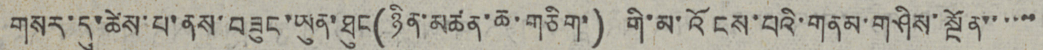གསར་དུ་ཚེས་པ་ནས་བཟུང་ཡུན་ཐུང(ཉིན་མཚན་ཆ་གཅིག་)གི་མ་འོངས་པའི་གནམ་གཤིས་སྔོན་་་་་་
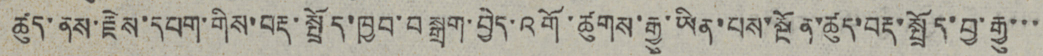ཚུད་ནས་རྗེས་དཔག་གིས་བརྡ་སྤྲོད་ཁྱབ་བསྒྲག་བྱེད་འགོ་ཚུགས་རྒྱུ་ཡིན་པས་སྔོན་ཚུད་བརྡ་སྤྲོད་བྱ་རྒྱུ་་་
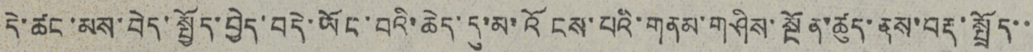དེ་ཚང་མས་བེད་སྤྱོད་བྱེད་བདེ་ཡོང་བའི་ཆེད་དུ་མ་འོངས་པའི་གནམ་གཤིས་སྔོན་ཚུད་ནས་བརྡ་སྤྲོད་་
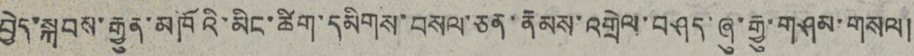བྱེད་སྐབས་རྒྱུན་མཁོའི་མིང་ཚིག་དམིགས་བསལ་ཅན་རྣམས་འགྲེལ་བཤད་ཞུ་རྒྱུ་གཤམ་གསལ།
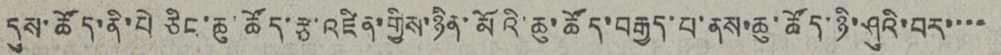དུས་ཚོད་ནི་པེ ཅིང་ཆུ་ཚོད་རྩ་འཛིན་གྱིས་ཉིན་མོའི་ཆུ་ཚོད་བརྒྱད་པ་ནས་ཆུ་ཚོད་ཉི་ཤུའི་བར་་་་
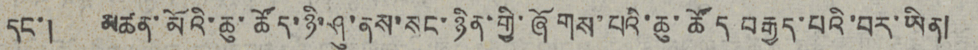མཚན་མོའི་ཆུ་ཚོད་ཉི་ཤུ་ནས་སང་ཉིན་གྱི་ཞོགས་པའི་ཆུ་ཚོད བརྒྱད་པའི་བར་ཡིན།
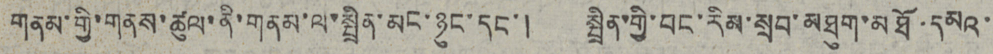གནམ་གྱི་གནས་ཚུལ་ནི་གནམ་ལ་སྤྲིན་མང་ཉུང་དང་། སྤྲིན་གྱི་བང་རིམ་སྲུབ་མཐུག་མཐོ་དམའ་
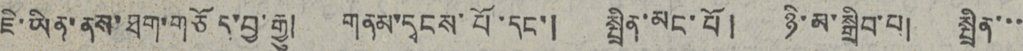ཇི་ཡིན་ནས་ཐག་གཅོད་བྱ་རྒྱུ། གནམ་དྭངས་པོ་དང་། སྤྲིན་མང་པོ། ཉི་མ་སྒྲིབ་པ། སྤྲིན་་་
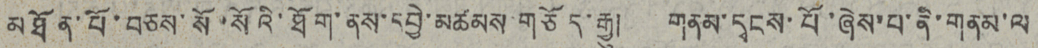མཐོན་པོ་བཅས་སོ་སོའི་ཐོག་ནས་དབྱེ་མཚམས་གཅོད་རྒྱུ། གནམ་དྭངས་པོ་ཞེས་པ་ནི་གནམ་ལ
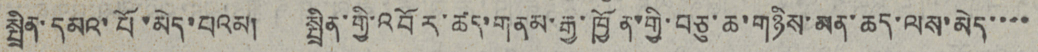སྤྲིན་དམའ་པོ་མེད་པའམ།   སྤྲིན་གྱི་འབོར་ཚད་གནམ་རྒྱ་ཁྱོན་གྱི་བཅུ་ཆ་གཉིས་མན་ཆད་ལས་མེད་་་་
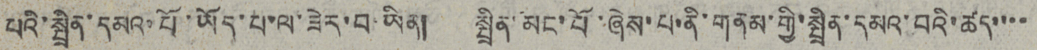པའི་སྤྲིན་དམའ་པོ་ཡོད་པ་ལ་ཟེར་བ་ཡིན། སྤྲིན་མང་པོ་ཞེས་པ་ནི་གནམ་གྱི་སྤྲིན་དམའ་བའི་ཚད་་་་
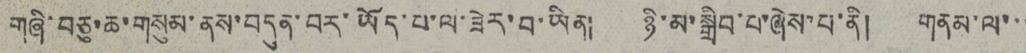གཞི་བཅུ་ཆ་གསུམ་ནས་བདུན་བར་ཡོད་པ་ལ་ཟེར་བ་ཡིན། ཉི་མ་སྒྲིབ་པ་ཞེས་པ་ནི། གནམ་ལ་་་
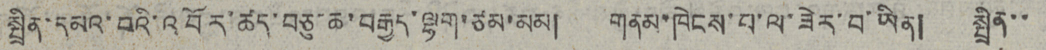སྤྲིན་དམའ་བའི་འབོར་ཚད་བཅུ་ཆ་བརྒྱད་ལྷག་ཙམ་མམ། གནམ་ཁེངས་པ་ལ་ཟེར་བ་ཡིན། སྤྲིན་་
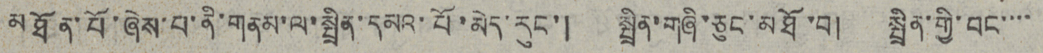མཐོན་པོ་ཞེས་པ་ནི་གནམ་ལ་སྤྲིན་དམའ་པོ་མེད་རུང་། སྤྲིན་གཞི་ཅུང་མཐོ་བ། སྤྲིན་གྱི་བང་་་་
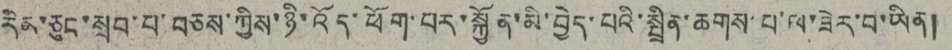རིམ་ཅུང་སྲུབ་པ་བཅས་ཀྱིས་ཉི་འོད་ཕོག་པར་སྐྱོན་མི་བྱེད་པའི་སྤྲིན་ཆགས་པ་ལ་ཟེར་བ་ཡིན།
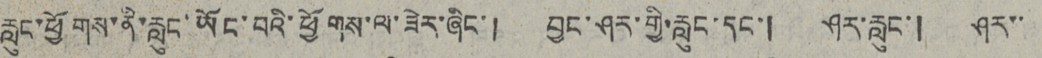རླུང་ཕྱོགས་ནི་རླུང་ཡོང་བའི་ཕྱོགས་ལ་ཟེར་ཞིང་། བྱང་ཤར་གྱི་རླུང་དང་། ཤར་རླུང་། ཤར་་
